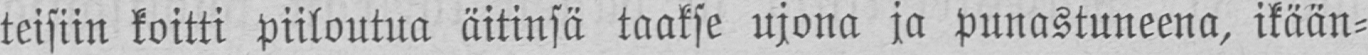teisiin koitti piiloutua äitinsä taakse ujona ja punastuneena, ikään-
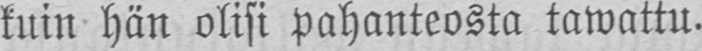kuin hän olisi pahanteosta tawattu.
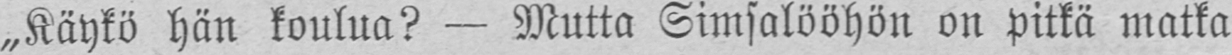„Käykö hän koulua? — Mutta Simsalööhön on pitkä matka
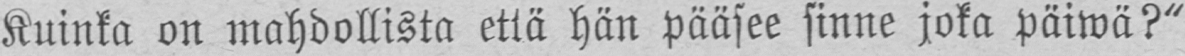Kuinka on mahdollista että hän pääsee sinne joka päiwä?"
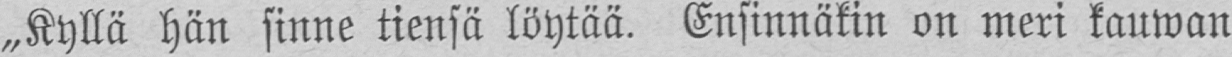„Kyllä hän sinne tiensä löytää. Ensinnäkin on meri kauwan
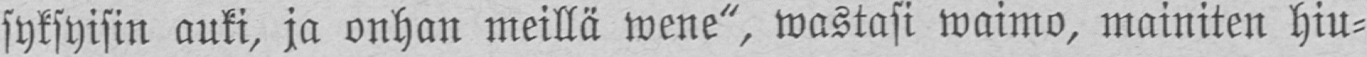syksyisin auki, ja onhan meillä wene", wastasi waimo, mainiten hiu-
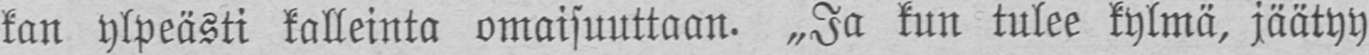kan ylpeästi kalleinta omaisuuttaan. „Ja kun tulee kylmä, jäätyy
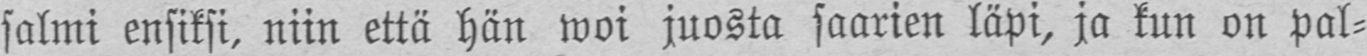salmi ensiksi, niin että hän woi juosta saarien läpi, ja kun on pal-
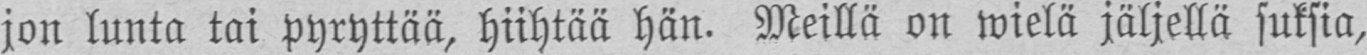jon lunta tai pyryttää, hiihtää hän. Meillä on wielä jäljellä suksia.
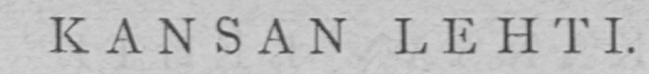KANSAN LEHTI.
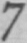7
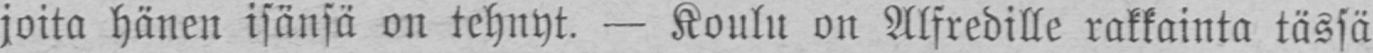joita hänen isänsä on tehnyt. — Koulu on Alfredille rakkainta tässä
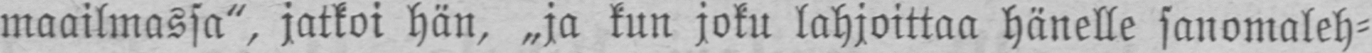maailmassa", jatkoi hän, „ja kun joku lahjoittaa hänelle sanomaleh-
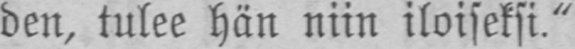den, tulee hän niin iloiseksi."
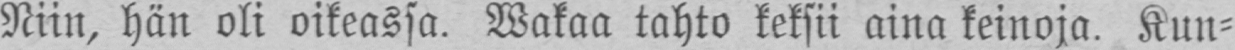Niin, hän oli oikeassa. Wakaa tahto keksii aina keinoja. Kun-
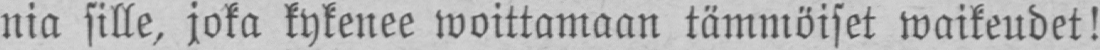nia sille, joka kykenee woittamaan tämmöiset waikeudet!
